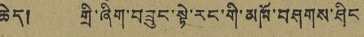ཆེད། གྲི་ཞིག་བཟུང་སྟེ་རང་གི་མཁོ་བཤགས་ཤིང
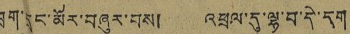ཁྲག་དྲུང་མོར་བཞུར་བས། འཕྲལ་དུ་ལྷ་བ་དེ་དག
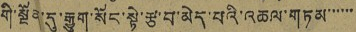གི་སྔོན་དུ་རྒྱུག་སོང་སྟེ་རྩ་བ་མེད་པའི་འཆལ་གཏམ་་་་་་
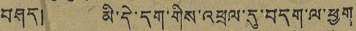བཤད། མི་དེ་དག་གིས་འཕྲལ་དུ་བདག་ལ་ཕྱག
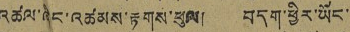འཚལ་ཞིང་འཚམས་རྟགས་ཕུལ། བདག་ཕྱིར་ཡོང་
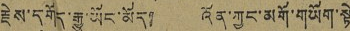རྗེས་དགོད་རྒྱུ་ཡོང་མོད། འོན་ཀྱང་མགོ་གཡོག་སྟེ
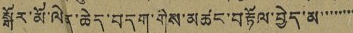སྒོར་མོ་ལེན་ཆེད་བདག་གིས་མཚང་བརྟོལ་བྱེད་མ་་་་་་་་
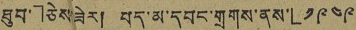ཐུབ་」ཅེས་ཟེར། པད་མ་དབང་གྲགས་ནས་「༡༩༤༩
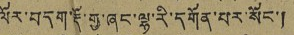ལོར་བདག་རྡོ་གུ་ཞང་ལྷ་རི་དགོན་པར་སོང་།
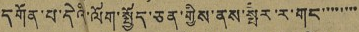དགོན་པ་དེའི་ལོག་སྤྱོད་ཅན་གྱིས་ནས་སྤར་ར་གང་་་་་་་་
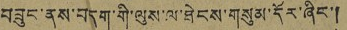བཟུང་ནས་བདག་གི་ལུས་ལ་ཐེངས་གསུམ་དོར་ཞིང་།
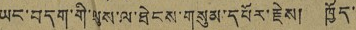ཡང་བདག་གི་ལུས་ལ་ཐེངས་གསུམ་དཔོར་རྗེས། ཁྱོད་
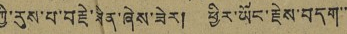ཀྱི་རུས་པ་བརྗེ་ཤིན་ཤེས་ཟེར། ཕྱིར་ཡོང་རྗེས་བདག་་་
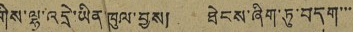གིས་ལྷ་འདྲེ་ཡིན་ཁུལ་བྱས། ཐེངས་ཞིག་ཏུ་བདག་་་
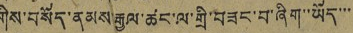གིས་བསོད་ནམས་རྒྱལ་ཚང་ལ་གྲི་བཟང་བ་ཞིག་་ཡོད་་་
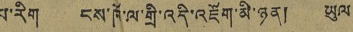པ་རིག ངས་ཁོ་ལ་གྲི་འདི་འཇོག་མི་ཉན། ཡུལ
